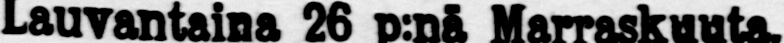Lauvantaina 26 p:nä Marraskuuta.
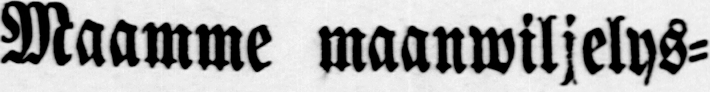Maamme maanwiljelys-
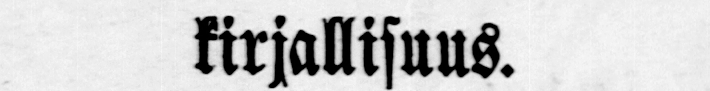kirjallisuus.
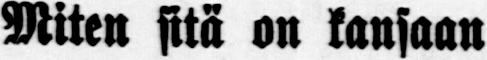Miten sitä on kansaan
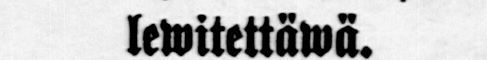lewitettäwä.
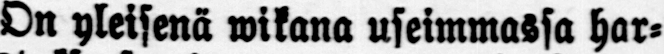On yleisenä wikana useimmassa har-
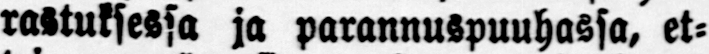rastuksessa ja parannuspuuhassa, et-
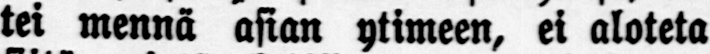tei mennä asian ytimeen, ei aloteta
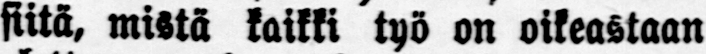siitä, mistä kaikki työ on oikeastaan
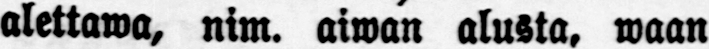alettawa, nim. aiwan alusta, waan
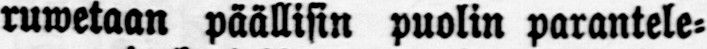ruwetaan päällisin puolin parantele-
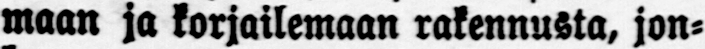maan ja korjailemaan rakennusta, jon-
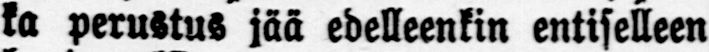ka perustu jää edelleenkin entiselleen
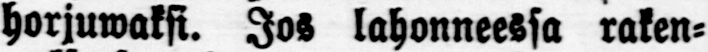horjuwaksi. Jos lahonneessa raken-
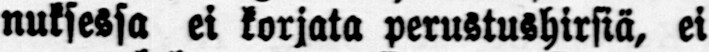nuksessa ei korjata perustushirsiä, ei
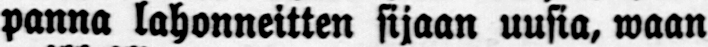panna lahonneitten sijaan uusia, waan
